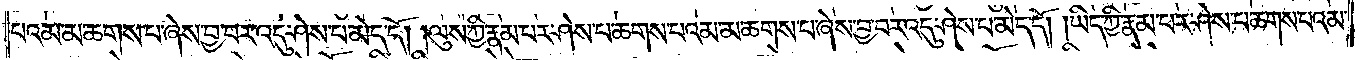པའམ་མ་ཆགས་པ་ཞེས་བྱ་བར་འདུ་ཤེས་པ་མེད་དོ། །ལུས་ཀྱི་རྣམ་པར་ཤེས་པ་ཆགས་པའམ་མ་ཆགས་པ་ཞེས་བྱ་བར་འདུ་ཤེས་པ་མེད་དོ། །ཡིད་ཀྱི་རྣམ་པར་ཤེས་པ་ཆགས་པའམ་
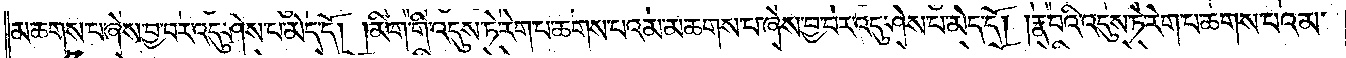མ་ཆགས་པ་ཞེས་བྱ་བར་འདུ་ཤེས་པ་མེད་དོ། །མིག་གི་འདུས་ཏེ་རེག་པ་ཆགས་པའམ་མ་ཆགས་པ་ཞེས་བྱ་བར་འདུ་ཤེས་པ་མེད་དོ། །རྣ་བའི་འདུས་ཏེ་རེག་པ་ཆགས་པའམ་
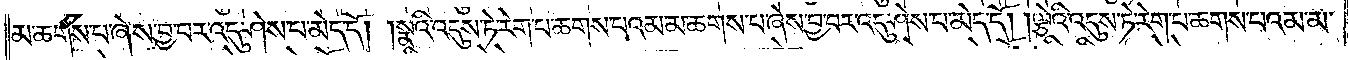མ་ཆགས་པ་ཞེས་བྱ་བར་འདུ་ཤེས་པ་མེད་དོ། །སྣའི་འདུས་ཏེ་རེག་པ་ཆགས་པའམ་མ་ཆགས་པ་ཞེས་བྱ་བར་འདུ་ཤེས་པ་མེད་དོ། །ལྕེའི་འདུས་ཏེ་རེག་པ་ཆགས་པའམ་མ་
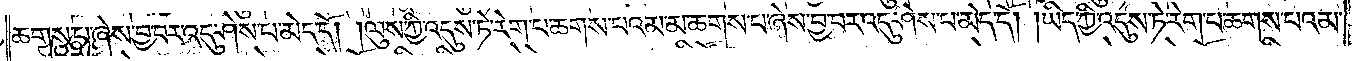ཆགས་པ་ཞེས་བྱ་བར་འདུ་ཤེས་པ་མེད་དོ། །ལུས་ཀྱི་འདུས་ཏེ་རེག་པ་ཆགས་པའམ་མ་ཆགས་པ་ཞེས་བྱ་བར་འདུ་ཤེས་པ་མེད་དོ། །ཡིད་ཀྱི་འདུས་ཏེ་རེག་པ་ཆགས་པའམ་
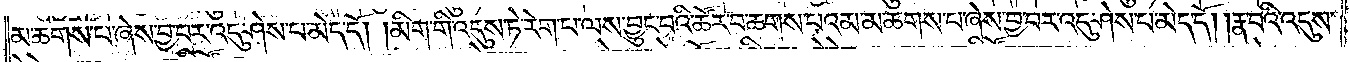མ་ཆགས་པ་ཞེས་བྱ་བར་འདུ་ཤེས་པ་མེད་དོ། །མིག་གི་འདུས་ཏེ་རེག་པ་ལས་བྱུང་བའི་ཚོར་བ་ཆགས་པའམ་མ་ཆགས་པ་ཞེས་བྱ་བར་འདུ་ཤེས་པ་མེད་དོ། །རྣ་བའི་འདུས་
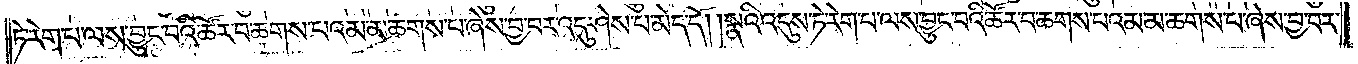ཏེ་རེག་པ་ལས་བྱུང་བའི་ཚོར་བ་ཆགས་པའམ་མ་ཆགས་པ་ཞེས་བྱ་བར་འདུ་ཤེས་པ་མེད་དོ། །སྣའི་འདུས་ཏེ་རེག་པ་ལས་བྱུང་བའི་ཚོར་བ་ཆགས་པའམ་མ་ཆགས་པ་ཞེས་བྱ་བར་
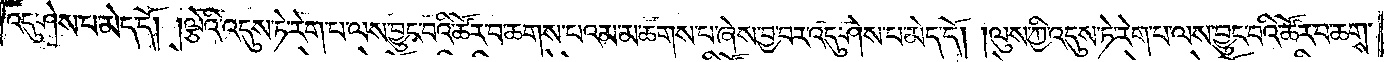འདུ་ཤེས་པ་མེད་དོ། །ལྕེའི་འདུས་ཏེ་རེག་པ་ལས་བྱུང་བའི་ཚོར་བ་ཆགས་པའམ་མ་ཆགས་པ་ཞེས་བྱ་བར་འདུ་ཤེས་པ་མེད་དོ། །ལུས་ཀྱི་འདུས་ཏེ་རེག་པ་ལས་བྱུང་བའི་ཚོར་བ་ཆགས་
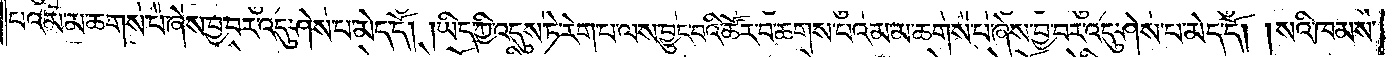པའམ་མ་ཆགས་པ་ཞེས་བྱ་བར་འདུ་ཤེས་པ་མེད་དོ། །ཡིད་ཀྱི་འདུས་ཏེ་རེག་པ་ལས་བྱུང་བའི་ཚོར་བ་ཆགས་པའམ་མ་ཆགས་པ་ཞེས་བྱ་བར་འདུ་ཤེས་པ་མེད་དོ། །སའི་ཁམས་
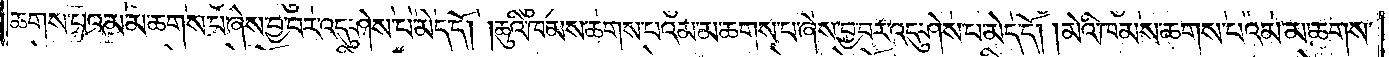ཆགས་པའམ་མ་ཆགས་པ་ཞེས་བྱ་བར་འདུ་ཤེས་པ་མེད་དོ། །ཆུའི་ཁམས་ཆགས་པའམ་མ་ཆགས་པ་ཞེས་བྱ་བར་འདུ་ཤེས་པ་མེད་དོ། །མེའི་ཁམས་ཆགས་པའམ་མ་ཆགས་
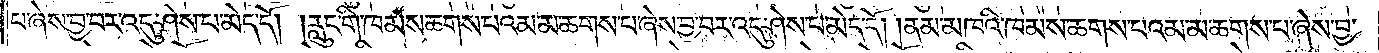པ་ཞེས་བྱ་བར་འདུ་ཤེས་པ་མེད་དོ། །རླུང་གི་ཁམས་ཆགས་པའམ་མ་ཆགས་པ་ཞེས་བྱ་བར་འདུ་ཤེས་པ་མེད་དོ། །ནམ་མཁའི་ཁམས་ཆགས་པའམ་མ་ཆགས་པ་ཞེས་བྱ་
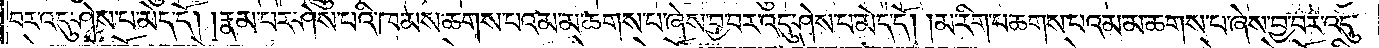བར་འདུ་ཤེས་པ་མེད་དོ། །རྣམ་པར་ཤེས་པའི་ཁམས་ཆགས་པའམ་མ་ཆགས་པ་ཞེས་བྱ་བར་འདུ་ཤེས་པ་མེད་དོ། །མ་རིག་པ་ཆགས་པའམ་མ་ཆགས་པ་ཞེས་བྱ་བར་འདུ་
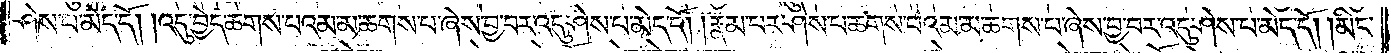ཤེས་པ་མེད་དོ། །འདུ་བྱེད་ཆགས་པའམ་མ་ཆགས་པ་ཞེས་བྱ་བར་འདུ་ཤེས་པ་མེད་དོ། །རྣམ་པར་ཤེས་པ་ཆགས་པའམ་མ་ཆགས་པ་ཞེས་བྱ་བར་འདུ་ཤེས་པ་མེད་དོ། །མིང་
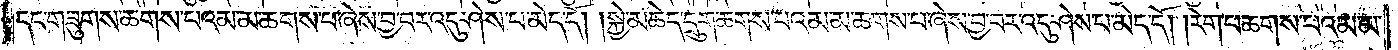དང་གཟུགས་ཆགས་པའམ་མ་ཆགས་པ་ཞེས་བྱ་བར་འདུ་ཤེས་པ་མེད་དོ། །སྐྱེ་མཆེད་དྲུག་ཆགས་པའམ་མ་ཆགས་པ་ཞེས་བྱ་བར་འདུ་ཤེས་པ་མེད་དོ། །རེག་པ་ཆགས་པའམ་མ་
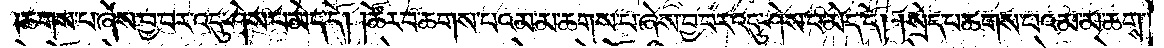ཆགས་པ་ཞེས་བྱ་བར་འདུ་ཤེས་པ་མེད་དོ། །ཚོར་བ་ཆགས་པའམ་མ་ཆགས་པ་ཞེས་བྱ་བར་འདུ་ཤེས་པ་མེད་དོ། །སྲེད་པ་ཆགས་པའམ་མ་ཆགས་
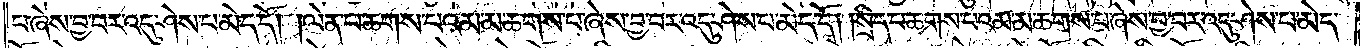པ་ཞེས་བྱ་བར་འདུ་ཤེས་པ་མེད་དོ། །ལེན་པ་ཆགས་པའམ་མ་ཆགས་པ་ཞེས་བྱ་བར་འདུ་ཤེས་པ་མེད་དོ། །སྲིད་པ་ཆགས་པའམ་མ་ཆགས་པ་ཞེས་བྱ་བར་འདུ་ཤེས་པ་མེད་
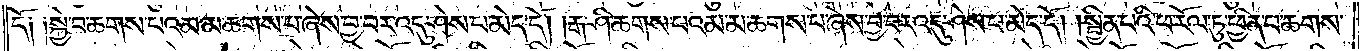དོ༑ ༑སྐྱེ་བ་ཆགས་པའམ་མ་ཆགས་པ་ཞེས་བྱ་བར་འདུ་ཤེས་པ་མེད་དོ། །རྒ་ཤི་ཆགས་པའམ་མ་ཆགས་པ་ཞེས་བྱ་བར་འདུ་ཤེས་པ་མེད་དོ། །སྦྱིན་པའི་ཕ་རོལ་ཏུ་ཕྱིན་པ་ཆགས་
